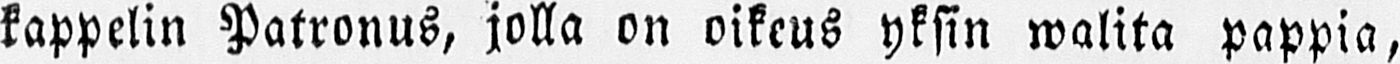kappelin Patronus, jolla on oikeus yksin walita pappia,
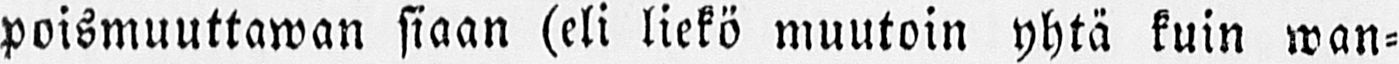poismuuttawan siaan (eli liekö muutoin yhtä kuin wan-
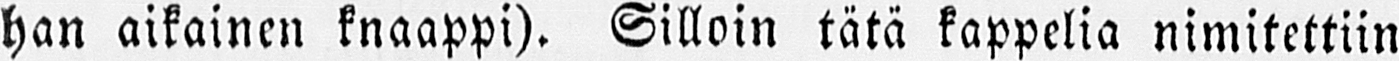han aikainen knaappi). Silloin tätä kappelia nimitettiin
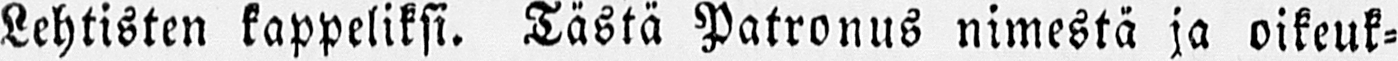Lehtisten kappeliksi. Tästä Patronus nimestä ja oikeuk-
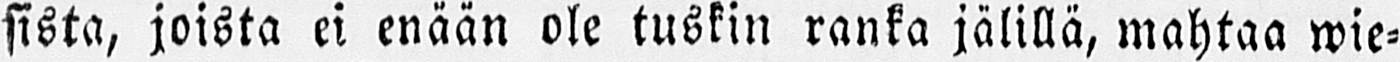sista, joista ei enään ole tuskin ranka jälillä, mahtaa wie-
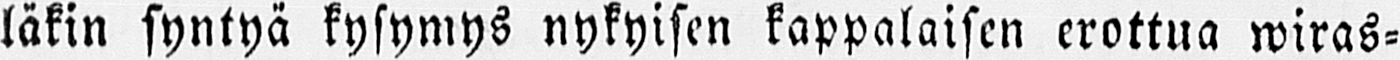läkin syntyä kysymys nykyisen kappalaisen erottua wiras-
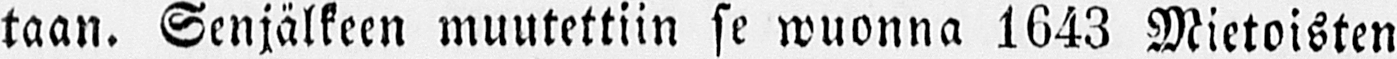taan. Senjälkeen muutettiin se wuonna 1643 Mietoisten
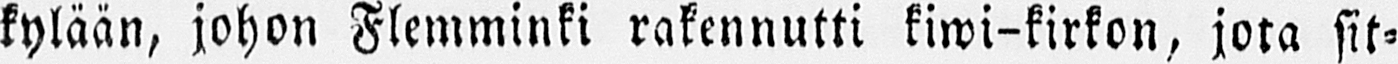kylään, johon Flemminki rakennutti kiwi-kirkon, jota sit-
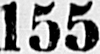155
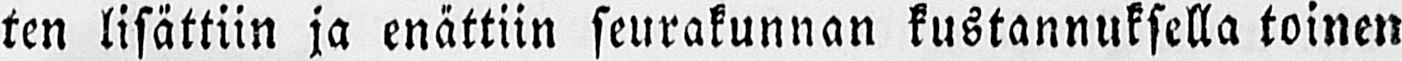ten lisättiin ja enättiin seurakunnan kustannuksella toinen
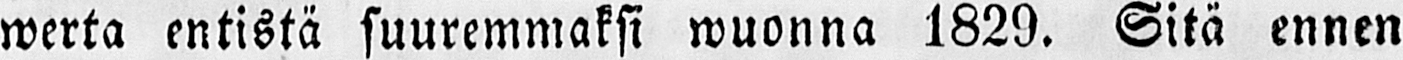werta entistä suuremmaksi wuonna 1829. Sitä ennen
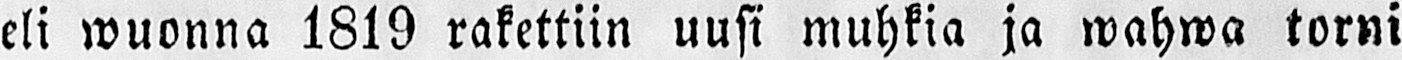eli wuonna 1819 rakettiin uusi muhkia ja wahwa torni
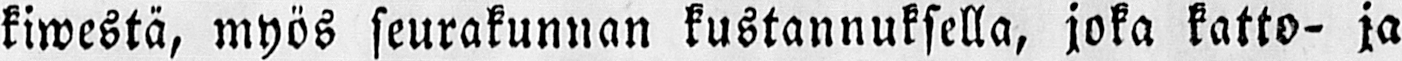kiwestä, myös seurakunnan kustannuksella, joka katto- ja
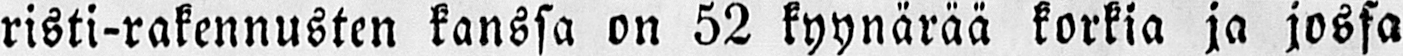risti-rakennusten kanssa on 52 kyynärää korkia ja jossa
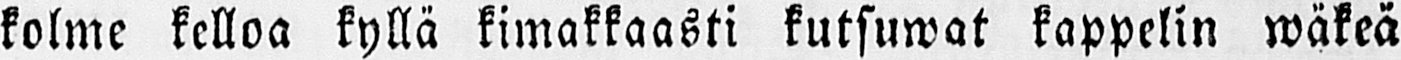kolme kelloa kyllä kimakkaasti kutsuwat kappelin wäkeä
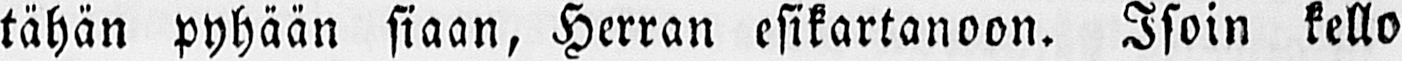tähän pyhään siaan, Herran esikartanoon. Isoin kello
